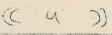(( ༥ ))
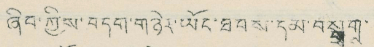ཞིབ་ཀྱིས་བདག་གཉེར་ཡོང་ཐབས་དམ་བསྒྲག་
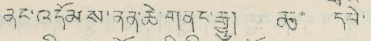ནང་འདོམས་ནན་ཆེ་གནང་རྒྱུ། ཆ་ དཔེ་
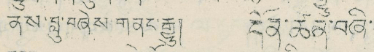ནས་བླུ་བཞེས་གནང་རྒྱུ། དོན་ཚན་བཞི་
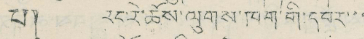པ། རང་རེ་ཆོས་ལུགས་ཁག་གི་དབར་་་
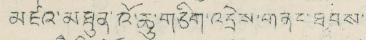མཛའ་མཐུན་འོ་ཆུ་གཅིག་འདྲེས་གནང་ཐབས་
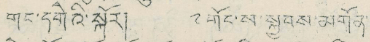གང་དགེའི་སྐོར། ༸གོང་ས་སྐྱབས་མགོན་
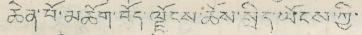ཆེན་པོ་མཆོག་བོད་ལྗོངས་ཆོས་སྲིད་ཡོངས་ཀྱི་
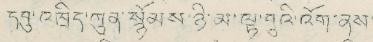དབུ་འཁྲིད་ཀུན་སྙོམས་ཉི་མ་ལྟ་བུའི་འོག་ནས་
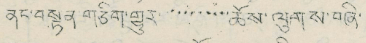ནང་བསྟན གཅིག་གྱུར་་་་་་་་་་་ཆོས་ལུགས་བཞི་
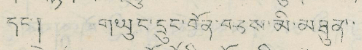དང་། གཡུང་དྲུང་བོན་བཅས་མི་མཐུན་་
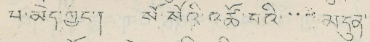པ་མེད་ཀྱང་། སོ་སོའི་འཚོ་བའི་་་་མདུན་
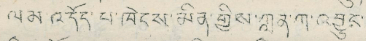ལམ འདོད་པ་ཁེངས་མིན་གྱིས་ཀླན་ཀ་འབྱུང་
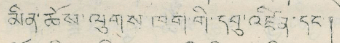མིན་ཆོས་ལུགས་ཁག་གི་དབུ་འཛིན་དང་།
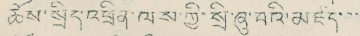ཆོས་སྲིད་འཕྲིན་ལས་ཀྱི་སྲི་ཞུ་བའི་མཛད་་་
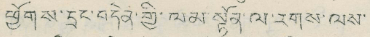ཕྱོགས་དྲང་བདེན་གྱི་ལམ་སྟོན་ལ་རགས་ལས་
